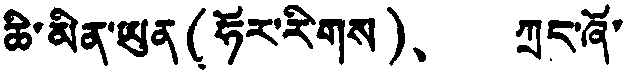ཆི་མིན་ཡུན (ཧོར་རིགས)、 ཀྲུང་ཞོ་
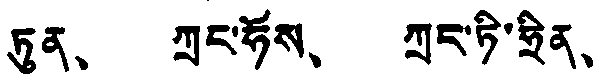ཏུན、 ཀྲུང་ཧོས、 ཀྲང་ཏི་ཧྲིན、
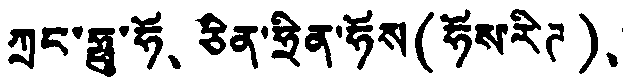ཀྲུང་ཧྥུ་ཧོ、 ཅིན་ཧྲིན་ཧོས (ཧོས་རིཊ )、
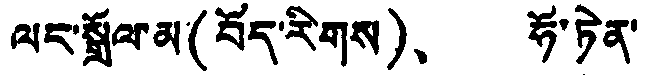ལང་སྒྲོལ་མ་(བོད་རིགས)、 ཧོ་ཏེན་
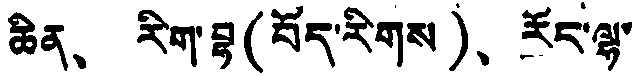ཆིན、 རིག་བྷ (བོད་རིགས)、 རོད་ལྷ་
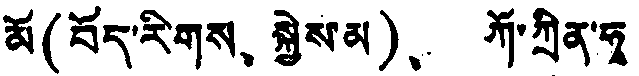མོ (བོད་རིགས、 སྐྱེས་མ)、 ཀོ་ཀྲིན་ཧྭ
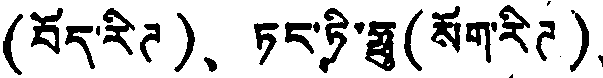(བོད་རིཊ )、 ཏང་ཏི་ཧྥུ (སོག་རིཊ)、
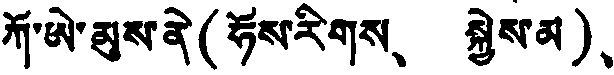ཀོ་ཨེ་མུས་ནེ(ཧོས་རིགས、 སྐྱེས་མ)、
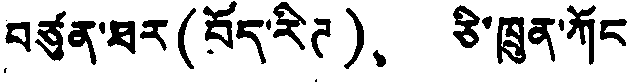བཙུན་ཐར (བོད་རིཊ)、 ཅི་ཁྲུན་ཀོང
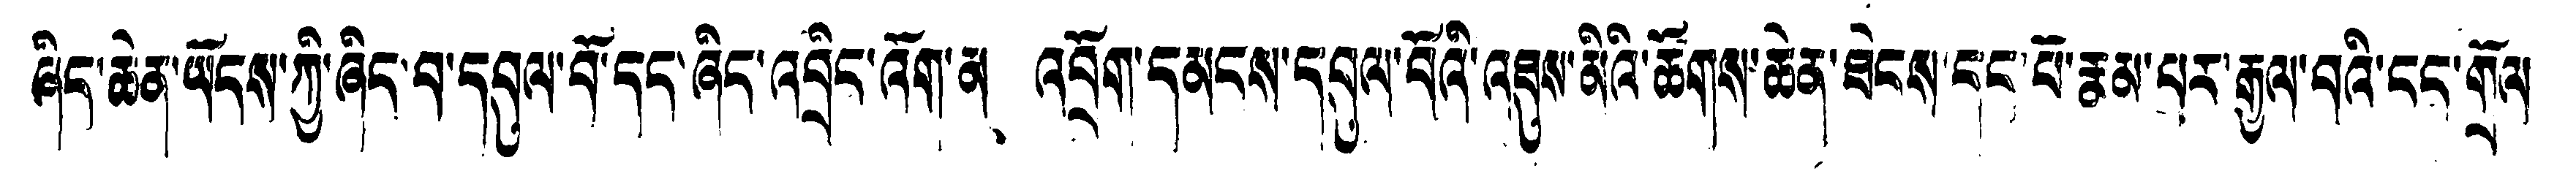ཞིད་ཆེན་ཡོངས་ཀྱི་ཞིང་བ་དབུལ་བོ་དང་ཞིང་འབྲིང་འོག་མ、 འབྲོག་དམངས་དབུལ་བོའི་འཐུས་མིའི་ཚོགས་ཆེན་ཐེངས་དང་པོ་རྣམ་པར་རྒྱལ་བའི་ངང་གྲོལ
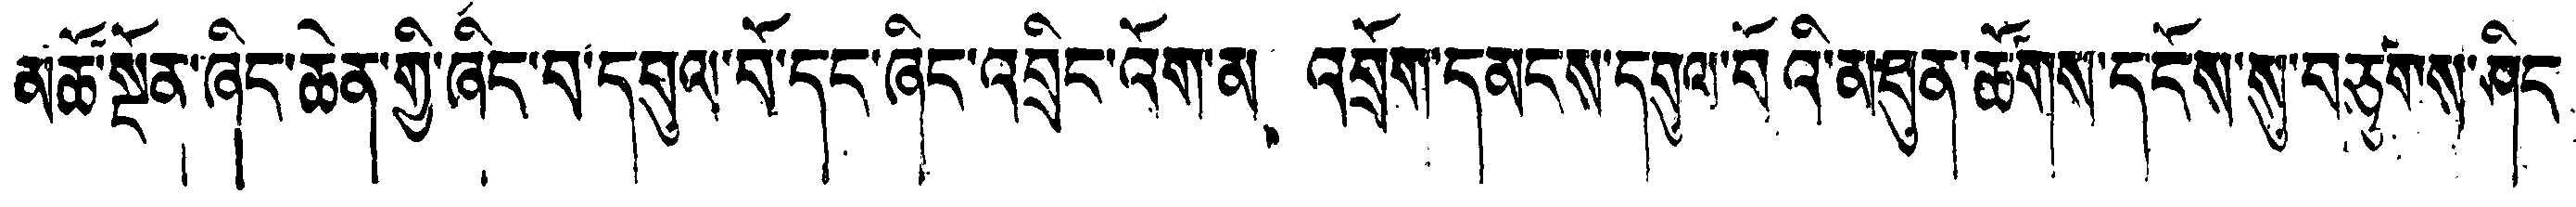མཚོ་སྔོན་ཞིང་ཆེན་གྱི་ཞིང་བ་དབུལ་བོ་དང་ཞིང་འབྲིང་འོག་མ、 འབྲོག་དམངས་དབུལ་བོའི་མཐུན་ཚོགས་དངོས་སུ་བཙུགས་ཤིང
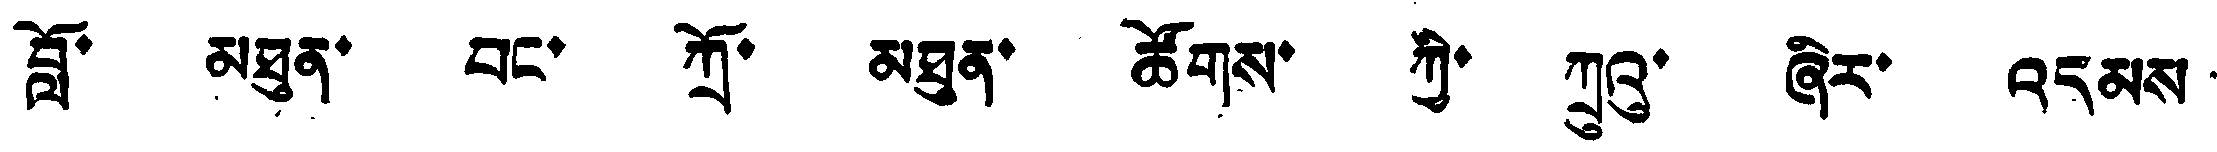བློ་ མཐུན་ བང་ ཀྲོ་ མཐུན་ ཚོགས་ ཀྱི་ ཀྲུའུ་ ཞིར་ འདམས་
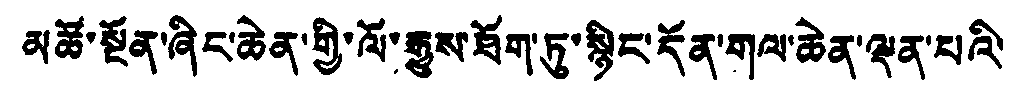མཚོ་སྔོན་ཞིང་ཆེན་གྱི་ལོ་རྒྱུས་ཐོག་ཏུ་སྙིང་དོན་གལ་ཆེན་ལྡན་པའི་
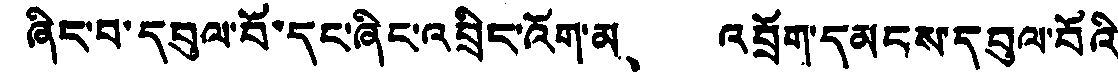ཞིང་བ་དབུལ་བོ་དང་ཞིང་འབྲིང་འོག་མ、 འབྲོག་དམངས་དབུལ་བོའི
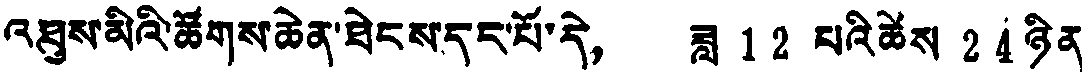འཐུས་མིའི་ཚོགས་ཆེན་ཐེངས་དང་པོ་དེ， ཟླ 12 པའི་ཚེས 24 ཉིན་
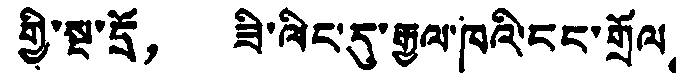གྱི་སྔ་དྲོ， ཟི་ལིང་དུ་རྒྱལ་ཁའི་ངང་གྲོལ。
